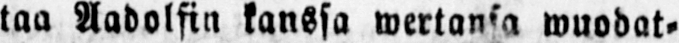taa Aadolfia kanssa wertansa wuodat-
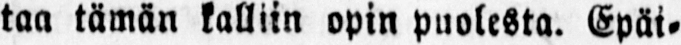taa tämän kalliin opin puolesta. Epäi-
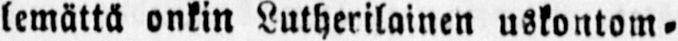lemättä onkin Lutherilainen uskontom-
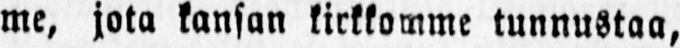me, jota kansan kirkkomme tunnustaa,
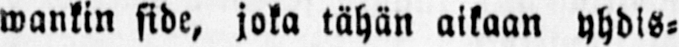wankin side, joka tähän aikaan yhdis-
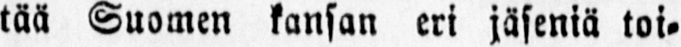tää Suomen kansan eri jäseniä toi-
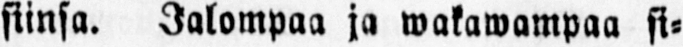siinsa. Jalompaa ja wakawampaa si-
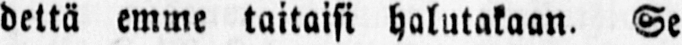dettä emme taitaisi halutakaan. Se
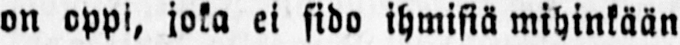on oppi, joka ei sido ihmisiä mihinkään
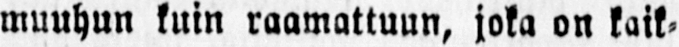muuhun kuin raamattuun, joka on kaik-
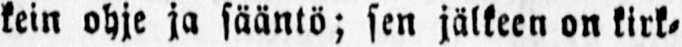kein ohje ja sääntö; sen jälkeen on kirk-
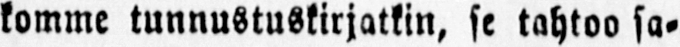komme tunnustuskirjatkin, se tahtoo sa-
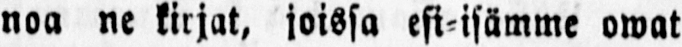noa ne kirjat, joissa est-isämme owat
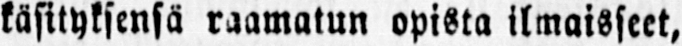käsityksensä raamatun opista ilmaisseet,
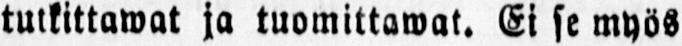tullittowat ja tuomittawat. Ei se myös
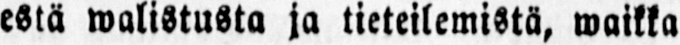estä walistusta ja tieteilemistä, waikka
